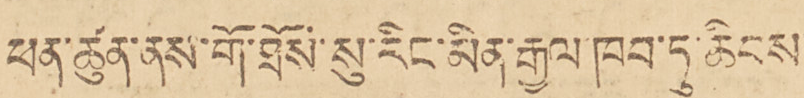ཕན་ཚུན་ནས་གོ་ཐོས་སུ་རིང་མིན་རྒྱལ་ཁབ་ཏུ་ཆིངས་
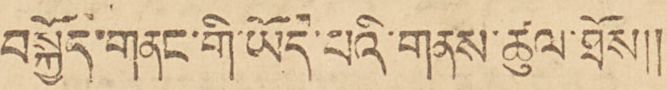བསྐྱོད་གནང་གི་ཡོད་པའི་གནས་ཚུལ་ཐོས།།
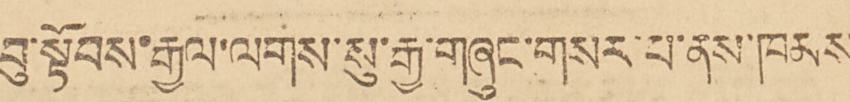བུ་སྟོབས་རྒྱལ་ལགས་སུ་རྒྱ་གཞུང་གསར་པ་ནས་ཁམས
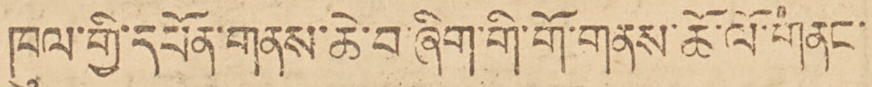ཁུལ་གྱི་དཔོན་གནས་ཆེ་བ་ཞིག་གི་གོ་གནས་ཆོ་ལོ་གནང་
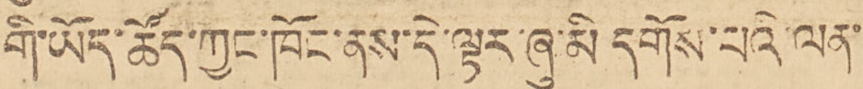གི་ཡོད་ཚོད་ཀྱང་ཁོང་ནས་དེ་ལྟར་ཞུ་མི་དགོས་པའི་ལན་
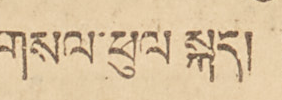གསལ་ཕུལ སྐད། །
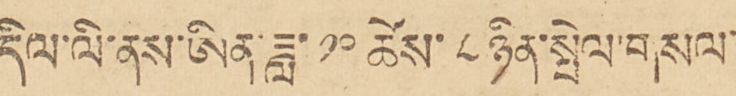དིལ་ལི་ནས་ཨིན་ཟླ་ ༡༠ ཚེས་ ༨ ཉིན་སྤེལ་གསལ་
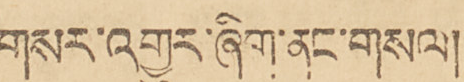གསར་གྱུར་ཞིག་ནང་གསལ།
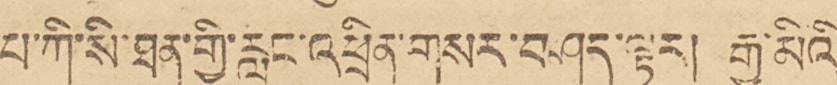པ་ཀི་སི་ཐན་གྱི་རླུང་འཕྲིན་གསར་བཤད་ལྟར། རྒྱ་མིའི་
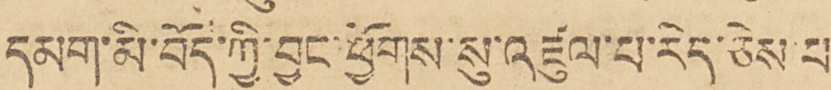དམག་མི་བོད་ཀྱི་བྱང་ཕྱོགས་སུ་འཛུལ་པ་རེད་ཅེས་པ་
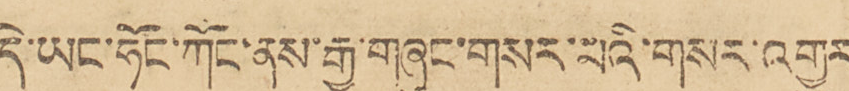དེ་ཡང་ཧོང་ཀོང་ནས་རྒྱ་གཞུང་གསར་པའི་གསར་འགྱུར
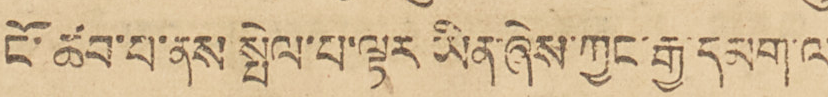ངོ་ཚབ་པ་ནས་སྤེལ་པ་ལྟར་ཡིན་ཞེས་ཀྱང་རྒྱ་དམག་ལ་
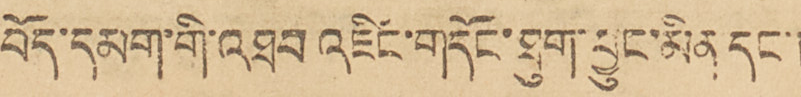བོད་དམག་གི་འཐབ་འཛིང་གདོང་ཐུག་བྱུང་མིན དང་།
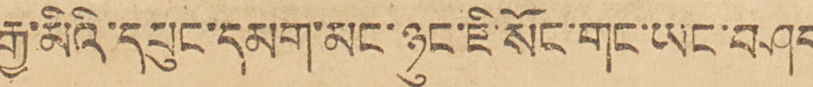རྒྱ་མིའི་དཔུང་དམག་མང་ཉུང་ཇི་སོང་གང་ཡང་བཤད་
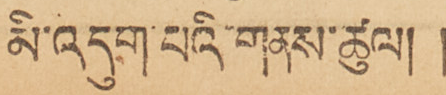མི་འདུག་པའི་གནས་ཚུལ། །
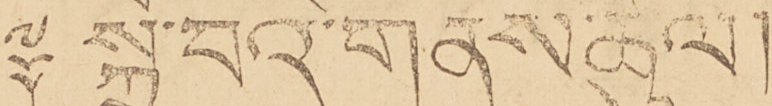༈ སྐྱི་བའི་གནས་ཚུལ།
